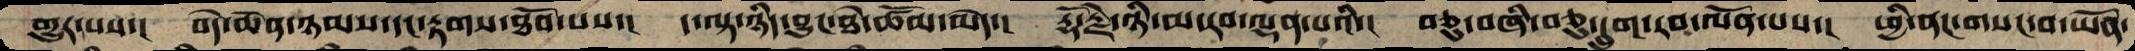གྱུར་པས་།  བདེ་ཆེན་ཉམས་དང་རྟགས་ཐོབ་པས་།  ད་ལྟ་ཉིད་བྱུང་ཐེ་ཚོམ་མེད་།  རྡོ་རྗེ་ཉི་མ་རབ་ལྡན་པའི་།  བཅུ་བཞི་བཅུ་དྲུག་རབ་ལོན་པས་།  ཕྱི་ནང་གསང་བ་ཡོན་
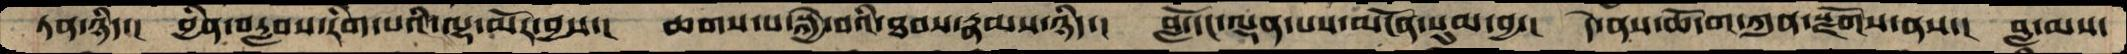ཏན་ཉིད་།  བྱིན་བརླབས་རིག་པའི་ལྷ་མོར་བྱས་།  ཆགས་པ་སྐྱེ་བའི་ཐབས་རྣམས་ཉིད་།  བློ་དང་ལྡན་པས་མངོན་སུམ་བྱ་།  དེ་ནས་ཆོ་ག་ཀུན་སྫོགས་ནས་།  བླ་མས་
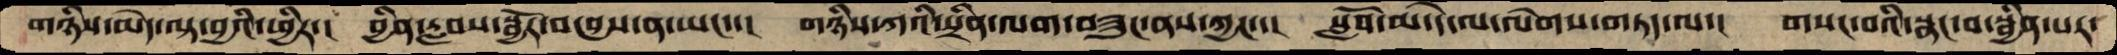གཉིས་མེད་ལྟ་བྱའི་ཕྱིར་།  བྱིན་རླབས་སྦྱོར་བ་བྱས་ན་ཡང་་། གཉིས་ཀའི་སྲིན་ལག་བཟུང་ནས་ཀྱང་་།  སློབ་མ་དེ་ལ་ལེགས་གཏད་ལ་།  གསང་བའི་སྣང་བ་སྦྱིན་པར་
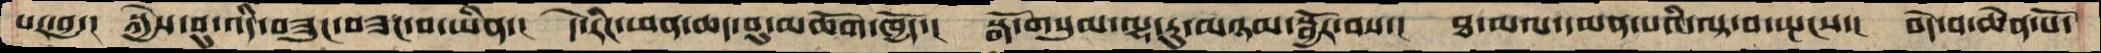པར་བྱ་།  སྐྱེས་བུ་འདི་བཟུང་བཟང་བ་ཡིན་།  དེ་རིང་ཕན་ཆད་བུ་མཆོག་ཁྱོད་།  སྒོ་གསུམ་ལྷ་རུ་མཉམ་སྦྱོར་བས་།  ཐ་མལ་དམན་པའི་ལྟ་བ་སྤངས་།  བདེ་བ་ཆེན་པོ་
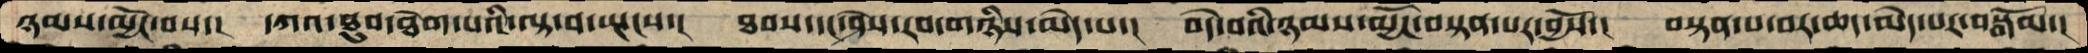ཉམས་མྱོང་བས་།  དཀའ་ཐུབ་ཐེག་པའི་ལྟ་བ་སྤངས་།   ཐབས་དང་ཤེས་རབ་གཉིས་མེད་པ་།   བདེ་བའི་ཉམས་མྱོང་བསྟན་པར་བྱསོ་།  བསྟན་པ་བར་ཆད་མེད་པར་བསྒོམ་།
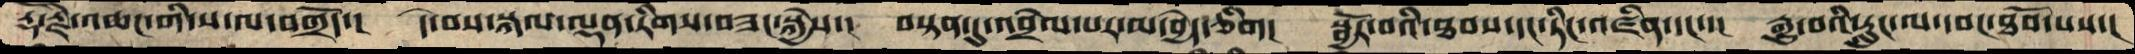རྡོ་རྗེ་འཆང་གི་ས་ལ་བགྲོད་།   དེ་བས་སྐལ་ལྡན་རིགས་བཟང་སྐྱེས་།   བསྟན་དུ་འབྲེལ་པར་མ་བྱེད་ཅིག།  སྦྱོར་བའི་ཐབས་དང་ཏིང་འཛིན་དང་་།  རྒྱུ་བའི་རླུང་ལ་དབང་ཐོབ་པས་།
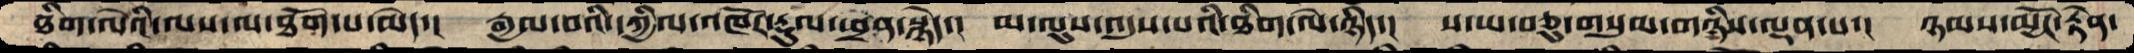ཐིག་ལེའི་ལས་ལ་ཐོག་པ་མེད་།   རྒྱལ་བའི་དཀྱིལ་འཁོར་རྡུལ་ཕྲན་སྙེད་།  མ་ལུས་འདུས་པའི་ཐིག་ལེ་ཉིད་།  ས་ཡ་བཅུ་གསུམ་གཉིས་ལྡན་པ་།  ཉམས་མྱོང་རྟེན་
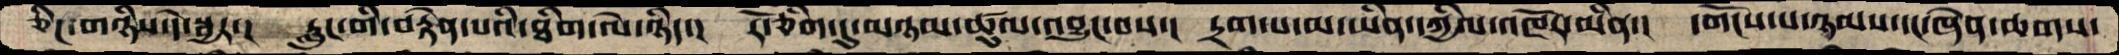ཅིང་གཉིས་དེ་སྦྱར་།   རླུང་གི་བརྟེན་པའི་ཐིག་ལེ་ཉིད་།  རོ་ཅིག་དུ་མཉམ་ཚུལ་འབྱུང་བས་།  དྲག་པ་མ་ཡིན་དཀྱིལ་འཁོར་ཡིན་།  དགོངས་པ་ཉམས་དང་ཞེན་ཆགས་
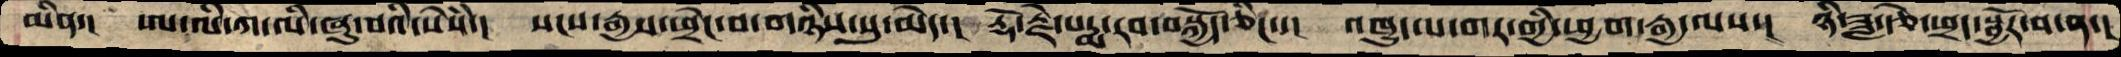མིན་།   ཨ་ལི་ཀ་ལི་ཞུ་བའི་སེཾས་།  སངས་རྒྱས་ཕྲེང་བ་གཉིས་སུ་མེད་།  རྡོ་རྗེ་པདྨ་རབ་བསྐྱོད་ཅིང་་།  འཁྱུད་པ་གར་གྱི་ཕྱག་རྒྱ་ལས་།  ཉི་ཟླ་རྩེ་ཕྲད་སྦྱོར་བ་ན་།
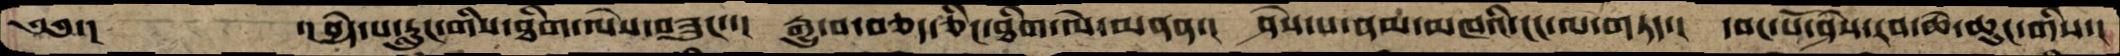༄༅་།     ་།བྱེད་པ་རླུང་གིས་ཐིག་ལེས་བཟུང་་།  རྒྱུ་བ་བཅད་ཅིང་ཐིག་ལེ་མནན་།  ཤེས་པ་ནམ་མཁའི་ངང་ལ་གཏད་།  དབང་པོ་ཤེས་རབ་ཆེ་ཆུང་གིས་།
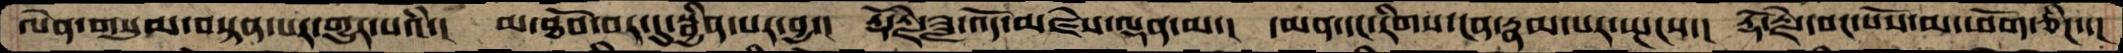ལེན་གསུམ་བསྟན་པར་གྱུར་པའཾ་།  མ་ཐོབ་བར་དུ་སྦྱིན་པར་བྱ་།  རྡོ་རྗེ་ཟླ་འོད་མཛེས་ལྡན་མ་།  དམན་དང་རིགས་ངན་རྣམ་པར་སྤངས་།  རྡོ་རྗེ་དབང་པོས་མ་ཕོག་ཅིང་་།
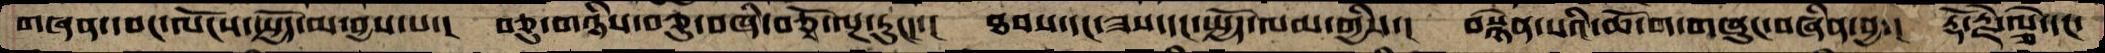གཞན་དབང་ལོངས་སྤྱོད་མ་བྱས་པ་།  བཅུ་གཉིས་བཅུ་བཞི་བཅྭོ་ལྔ་རུང་་།  ཐབས་དང་ཟས་དང་སྤྱོད་ལམ་གྱིས་།  བསྙེན་པའི་ཆོ་ག་གཞུང་བཞིན་བྱ་།  རྡོ་རྗེ་ལྕེ་དང་
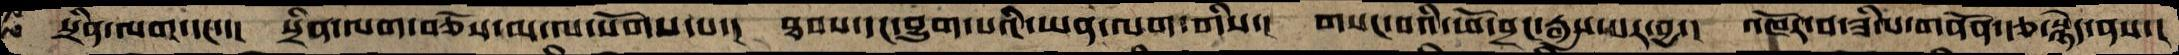སྲིན་ལག་དང་་། སྲིན་ལག་བཅོས་མ་ལ་སོགས་པ་། ཐབས་དང་བྱུག་པའི་ཡན་ལག་གིས་། གསང་བའི་ཕོ་བྲང་རྒྱས་པར་བྱ་། འཁོར་བ་ཟིལ་གནོན་རྩ་སྙེད་ནས་།
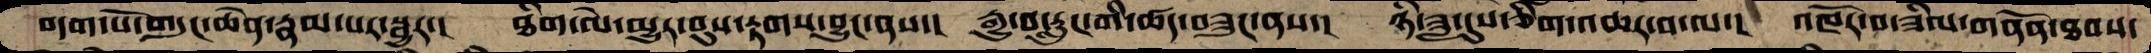བདག་པོ་གདུང་ཆེན་རྣམ་པར་སྦྱར་།  ཐིག་ལེ་མྱུར་བུས་རྟགས་བྱུང་ནས་།  རྒྱུ་བ་རླུང་གི་ཚད་བཟུང་ནས་།  ཉི་ཟླ་དུས་ཅིག་འཆར་བ་ལ་།  འཁོར་བ་ཟིལ་གནོན་ཐབས་
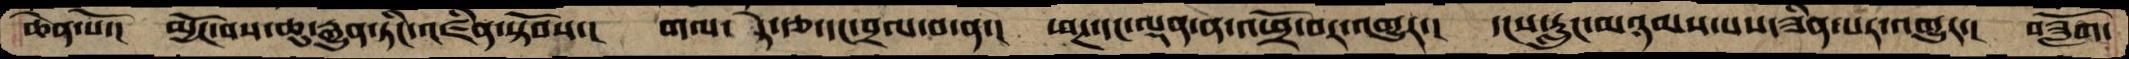ཆེན་པོ་།  མྱོང་བས་ཆུ་རྒྱུན་ཏིང་འཛིན་སྟོབས་།  གལ་ ཏེ་རྩ་དང་བྲལ་བ་ན་།  ཕཊ་དང་ལྡན་ན་འཕྲོ་བར་འགྱུར་།  དངས་རླུང་མཉམས་པས་ཟིན་པར་འགྱུར་།  བཟློག་
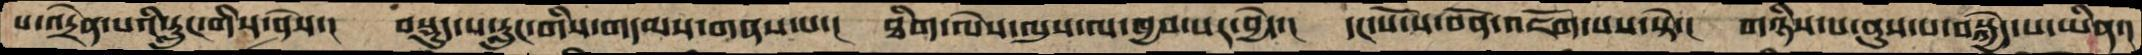པ་འདྲེན་པའི་རླུང་གིས་ཤེས་།  བསྡུད་པ་རླུང་གིས་གདམས་གནས་པ་།  ཐིག་ལེས་ལུས་ལ་ཁྱབ་པར་བྱེད་།  དང་པོ་ས་བོན་འཇོག་པས་སྟེ་།  གཉིས་པ་ནུས་པ་བསྐྱེད་པ་ཡིན་།
